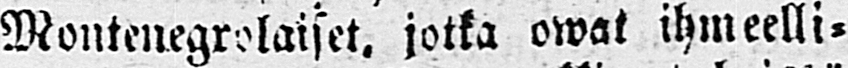Montenegrolaiset, jotka owat ihmeelli-
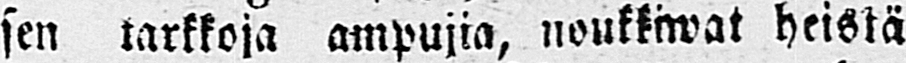sen tarkkoja ampujia, noukkiwat heistä
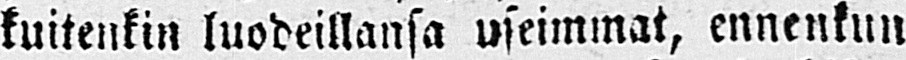kuitenkin luodeillansa useimmat, ennenkun
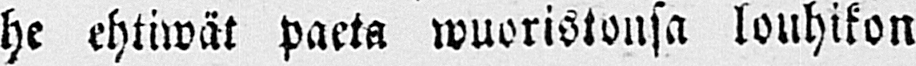he ehtiwät paeta wuoristonsa louhikon
